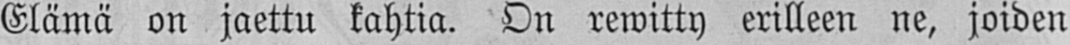Elämä on jaettu kahtia. On rewitty erilleen ne, joiden
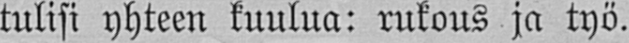tulisi yhteen kuulua: rukous ja työ.
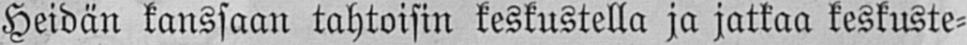Heidän kanssaan tahtoisin keskustella ja jatkaa keskuste-
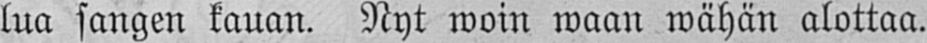lua sangen kauan. Nyt woin waan wähän alottaa.
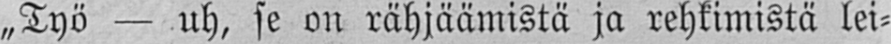-„Työ — uh, se on rähjäämistä ja rehkimistä lei-
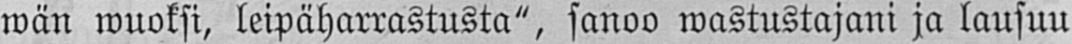wän wuoksi, leipäharrastusta", sanoo wastustajani ja lausuu
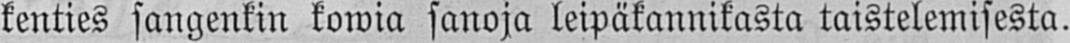kenties sangenkin kowia sanoja leipäkannikasta taistelemisesta.
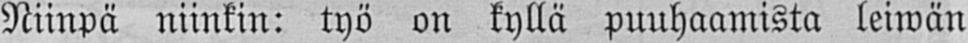Niinpä niinkin: työ on kyllä puuhaamista leiwän
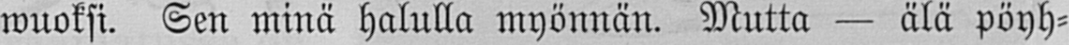wuoksi. Sen minä halulla myönnän. Mutta - älä pöyh-
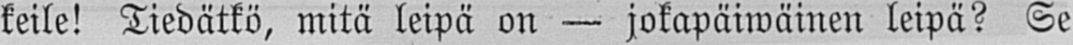keile! Tiedätkö, mitä leipä on - jokapäiwäinen leipä? Se
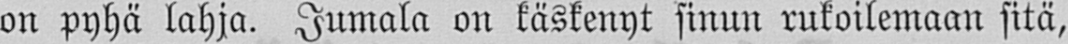on pyhä lahja. Jumala on käskenyt sinun rukoilemaan sitä,
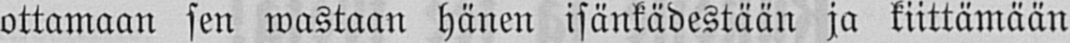ottamaan sen wastaan hänen isänkädestään ja kiittämään
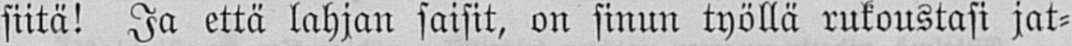siitä! Ja että lahjan saisit, on sinun työllä rukoustasi jat-
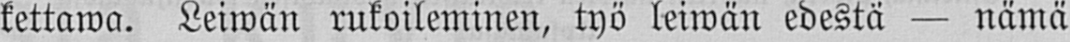kettawa. Leiwän rukoileminen, työ leiwän edestä - nämä
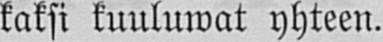kaksi kuuluwat yhteen.
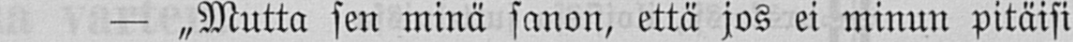- „Mutta sen minä sanon, että jos ei minun pitäisi
